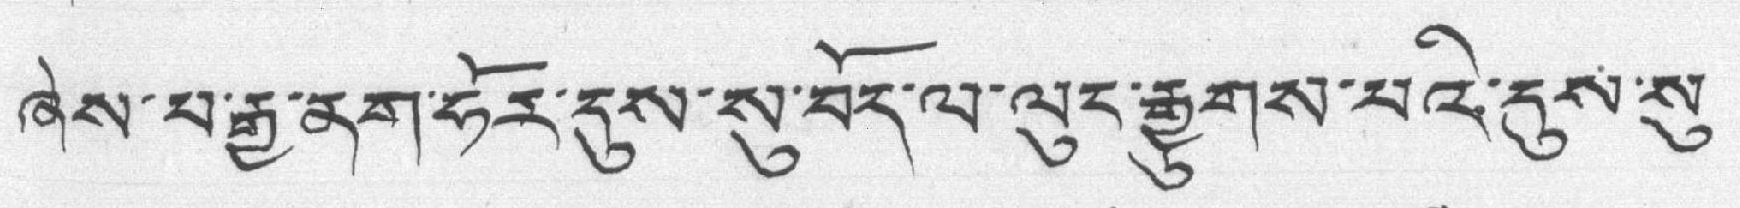ཞེས་པ་རྒྱ་ནག་ཧོར་དུས་སུ་བོད་ལ་ལུང་རྒྱུགས་པའི་དུས་སུ་
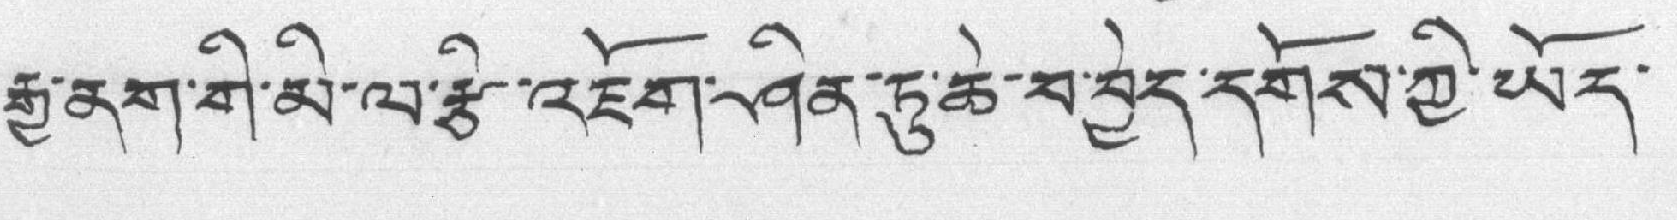རྒྱ་ནག་གི་མི་ལ་རྩི་འཇོག་ཤིན་ཏུ་ཆེ་བ་བྱེད་དགོས་ཀྱི་ཡོད་
